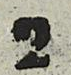2
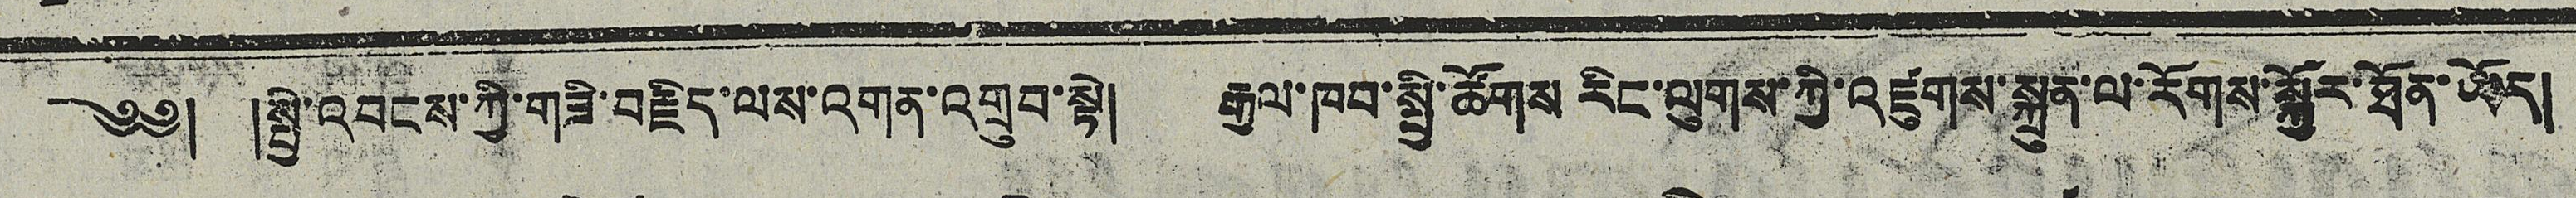༄༅། །སྤྱི་འབངས་ཀྱི་གཟི་བརྗིད་ལས་འགན་འགྲུབ་སྟེ། རྒྱལ་ཁབ་སྤྱི་ཚོགས་རིང་ལུགས་ཀྱི་འཛུགས་སྐྲུན་ལ་རོགས་སྐྱོར་ཐོན་ཡོད།
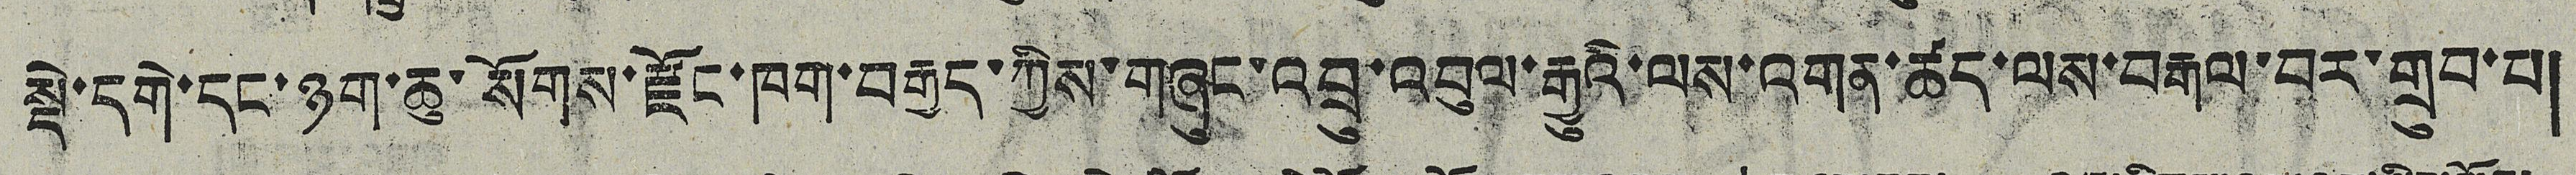སྡེ་དགེ་དང་ཉག་ཆུ་སོགས་རྫོང་ཁག་བརྒྱད་ཀྱིས་གཞུང་འབྲུ་འབུལ་རྒྱུའི་ལས་འགན་ཚད་ལས་བརྒལ་བར་གྲུབ་པ།
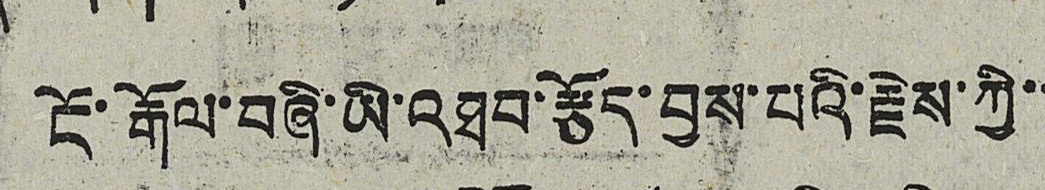ངོ་རྒོལ་བཞི་ཡི་འཐབ་རྩོད་བྱས་པའི་རྗེས་ཀྱི་་
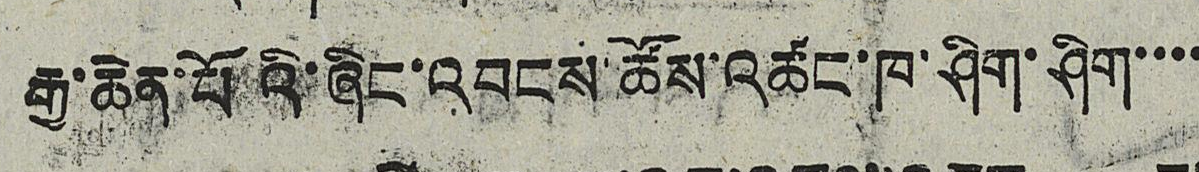རྒྱ་ཆེན་པོའི་ཞིང་འབངས་ཚོས་འཚང་ཁ་ཤིག་ཤིག་་་་
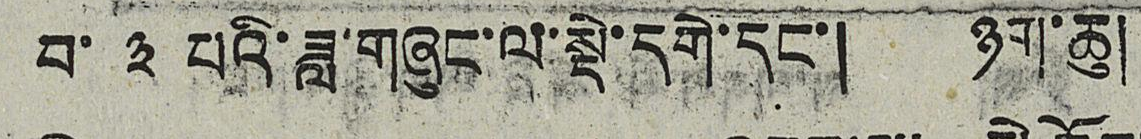བ་ ༣ པའི་ཟླ་གཞུང་ལ་སྡེ་དགེ་དང་། ཉག་ཆུ།
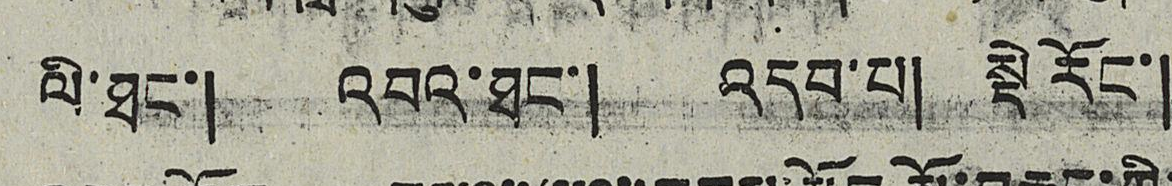ལི་ཐང་། འབའ་ཐང་། འདབ་པ། སྡེ རོང་།
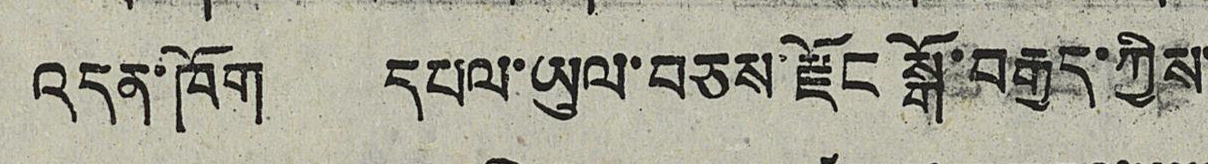འདུན་ཁོག དཔལ་ཡུལ་བཅས་རྫོང སྒོ་བརྒྱད་ཀྱིས་
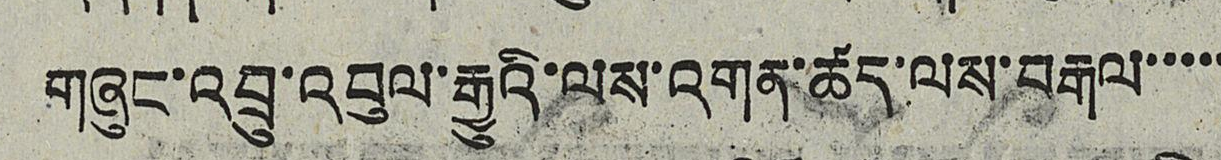གཞུང་འབྲུ་འབུལ་རྒྱུའི་ལས་འགན་ཚད་ལས་བརྒལ་་་་་
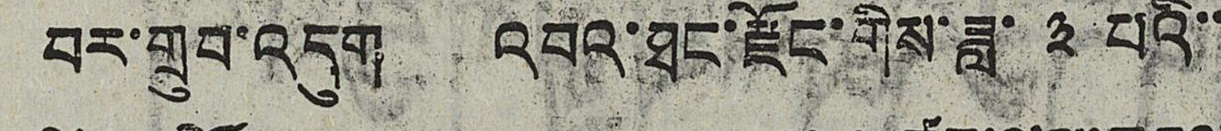བར་གྲུབ་འདུག འབའ་ཐང་རྫོང་གིས་ཟླ་ ༣ པའི་་
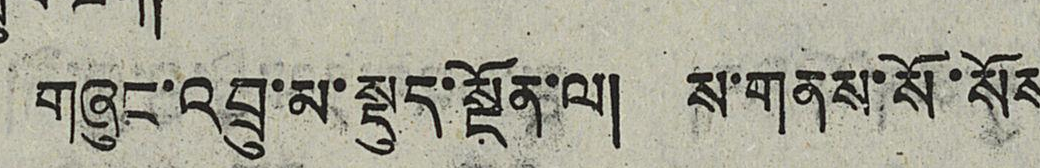གཞུང་འབྲུ་མ་སྡུད་སྔོན་ལ། ས་གནས་སོ་སོས
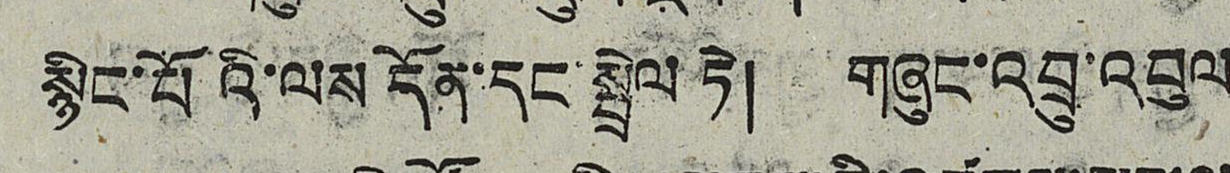སྙིང་པོའི་ལས དོན་དང་སྦྲེལ་ཏེ། གཞུང་འབྲུ་འབུལ
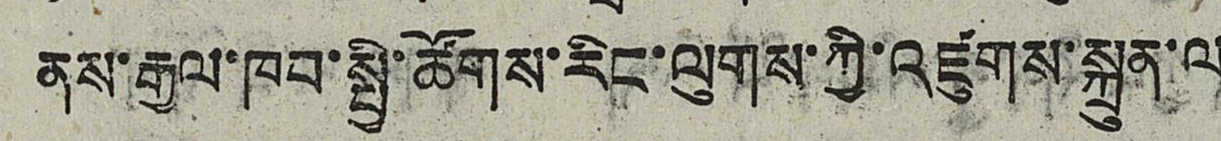ནས་རྒྱལ་ཁབ་སྤྱི་ཚོགས་རིང་ལུགས་ཀྱི་འཛུགས་སྐྲུན་ལ
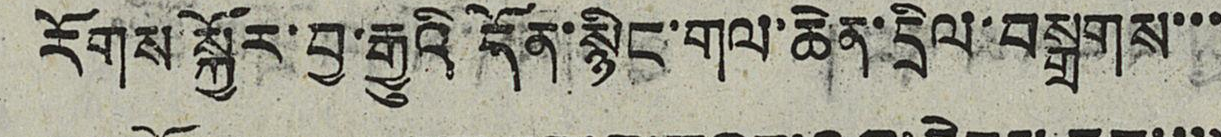རོགས་སྐྱོར་བྱ་རྒྱུའི་དོན་སྙིང་གལ་ཆེན་དྲིལ་བསྒྲགས་་་
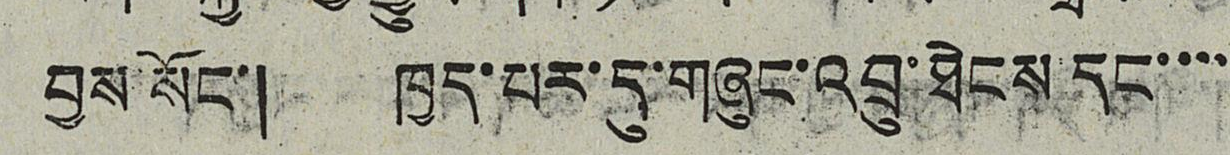བྱས་སོང་། ཁྱད་པར་དུ་གཞུང་འབྲུ་ཐེངས་དང་་་་
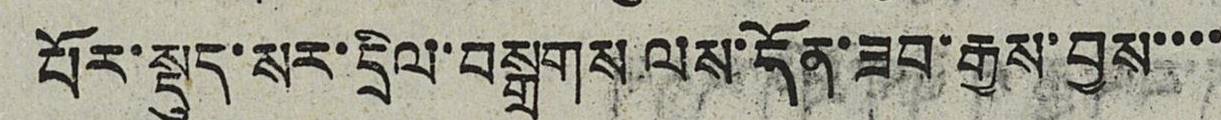པོར་སྡུད་སར་དྲིལ་བསྒྲགས ལས་དོན་ཟབ་རྒྱས་བྱས་་་་
